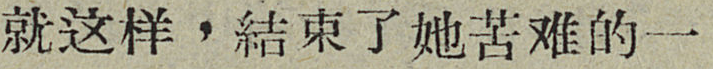就这样，結束了她苦难的一
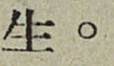生。
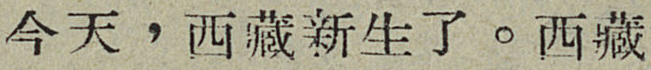今天，西藏新生了。西藏
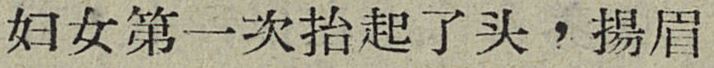妇女第一次抬起了头，揚眉
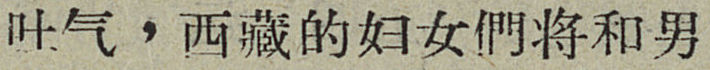吐气，西藏的妇女們将和男
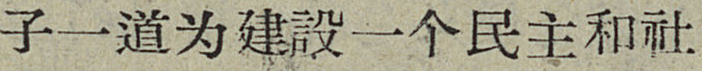子一道为建設一个民主和社
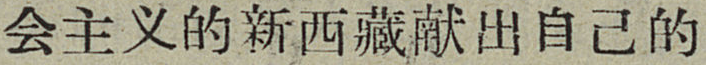会主义的新西藏献出自己的
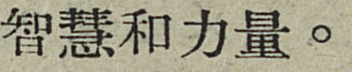智慧和力量。
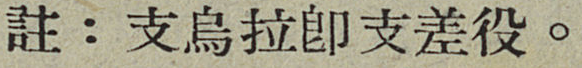註：支烏拉卽支差役。
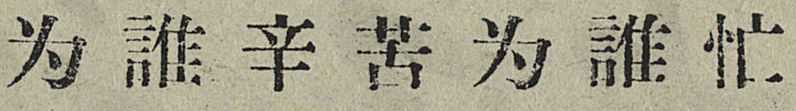为誰辛苦为誰忙
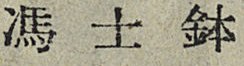馮 士 鉢
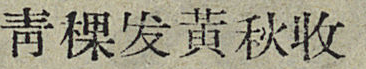靑稞发黃秋收
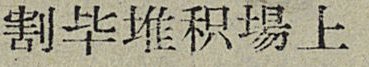割毕堆积場上
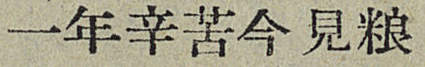一年辛苦今見粮
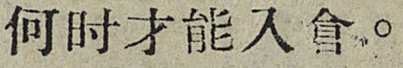何时才能入倉。
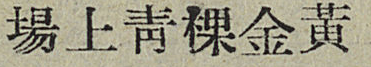場上靑稞金黃
